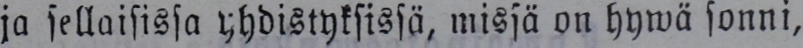ja sellaisissa yhdistyksissä, missä on hywä sonni,
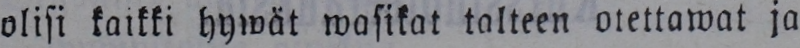olisi kaikki hywät wasikat talteen otettawat ja
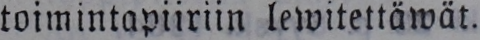toimintapiiriin lewitettäwät.
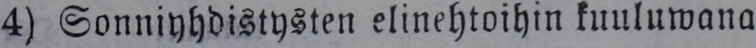4) Sonniyhdistysten elinehtoihin kuuluwana
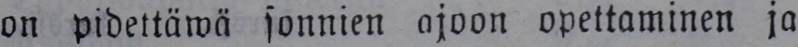on pidettäwä sonnien ajoon opettaminen ja
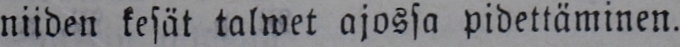niiden kesät talwet ajossa pidettäminen.
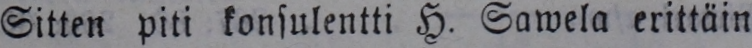Sitten piti konsulentti H. Sawela erittäin
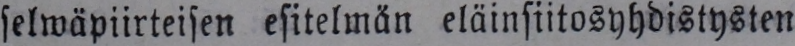selwäpiirteisen esitelmän eläinsiitosyhdistysten
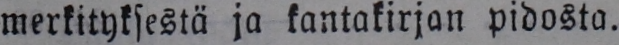merkityksestä ja kantakirjan pidosta.
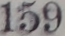159
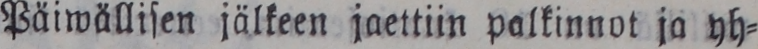Päiwällisen jälkeen jaettiin palkinnot ja yh-
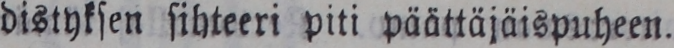distyksen sihteeri piti päättäjäispuheen.
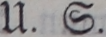U. S.
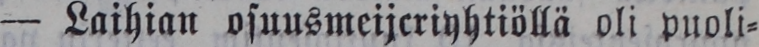— Laihian osuusmeijcriyhtiöllä oli puoli-
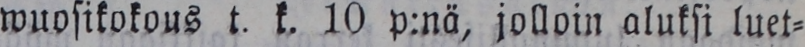wuosikokous t. k. 10 p:nä, jolloin aluksi luet-
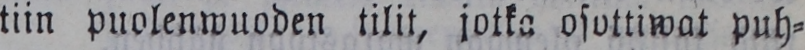tiin puolenwuoden tilit, jotka osottiwat puh-
